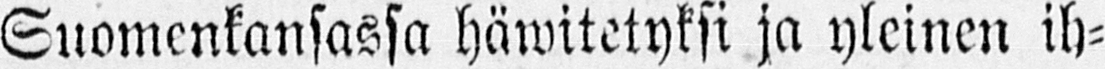Suomenkansassa häwitetyksi ja yleinen ih-
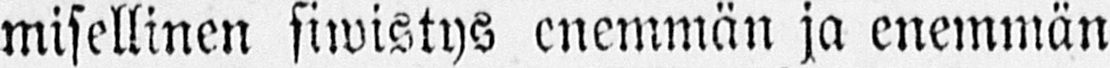misellinen siwistys enemmän ja enemmän
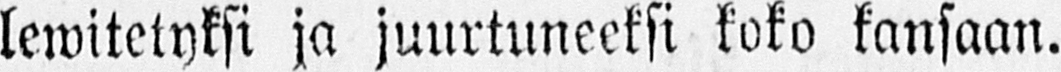lewitetyksi ja juurtuneeksi koko kansaan.
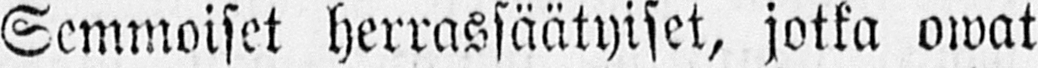Semmoiset herrassäätyiset, jotka owat
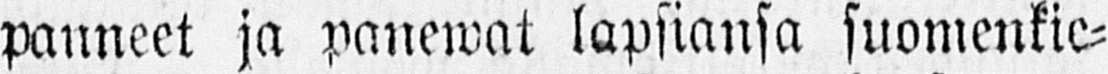panneet ja panewat lapsiansa suomenkie-
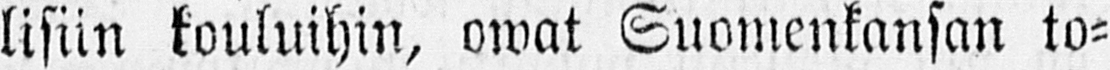lisiin kouluihin, owat Suomenkansan to-
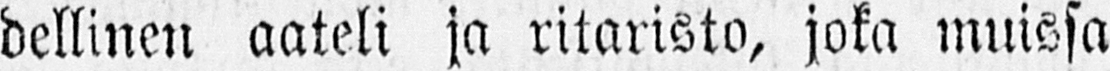dellinen aateli ja ritarista, joka muissa
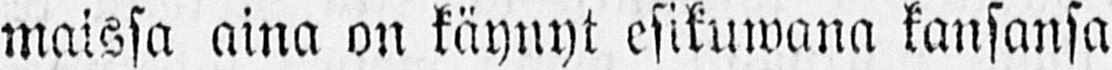maissa aina on käynyt esikuwana kansansa
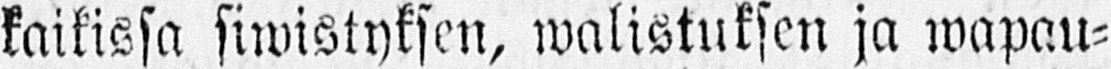kaikissa siwistyksen, walistuksen ja wapau-
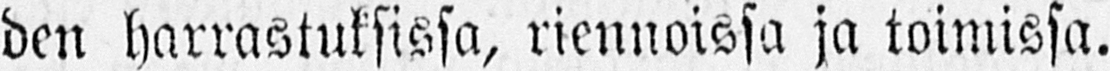den harrastuksissa, riennoissa ja toimissa.
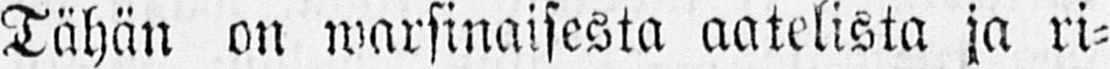Tähän on warsinaisesta aatelista ja ri-
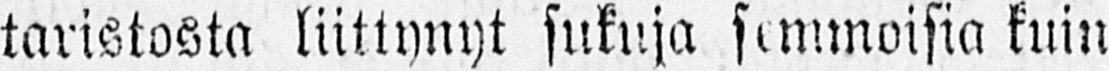taristosta liittynyt sukuja semmoisia kuin
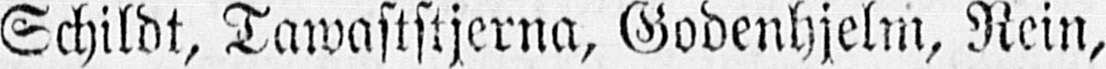Schildt, Tawaststjerna, Godenhjelm, Rein,
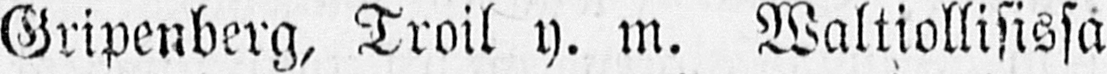Gripenberg, Troil y. m. Waltiollisissa
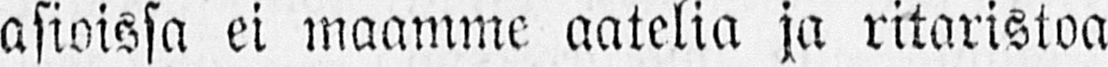asioissa ei maamme aatelia ja ritaristoa
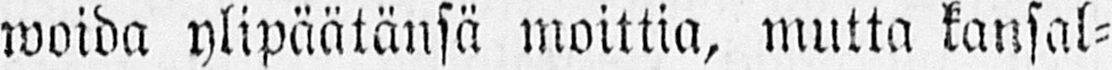woida ylipäätänsä moittia, mutta kansal-
